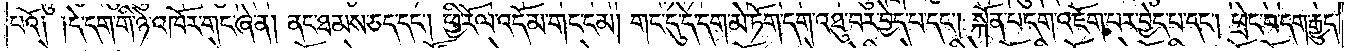པའོ༑ ༑དེ་དག་གི་ཉེ་འཁོར་གང་ཞེ་ན། ནང་ཐམས་ཅད་དང༌། ཕྱི་རོལ་འདོམ་གང་ངམ། གང་དུ་དེ་དག་མེ་ཏོག་དག་འཐུ་བར་བྱེད་པ་དང༌། སྐོན་པ་དག་འཇོག་པར་བྱེད་པ་དང༌། ཕྲེང་བ་དག་རྒྱུད་
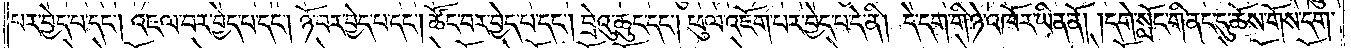པར་བྱེད་པ་དང༌། འཇལ་བར་བྱེད་པ་དང༌། ཉོ་བར་བྱེད་པ་དང༌། ཚོང་བར་བྱེད་པ་དང༌། བྲེའུ་ཆུང་དང༌། ཕུལ་འཇོག་པར་བྱེད་པ་དེ་ནི། དེ་དག་གི་ཉེ་འཁོར་ཡིན་ནོ། །དགེ་སློང་གི་ནང་དུ་ཆོས་གོས་དག་
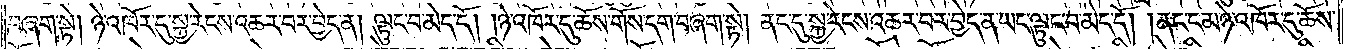བཞག་སྟེ། ཉེ་འཁོར་དུ་སྐྱ་རེངས་འཆར་བར་བྱེད་ན། ལྟུང་བ་མེད་དོ། །ཉེ་འཁོར་དུ་ཆོས་གོས་དག་བཞག་སྟེ། ནང་དུ་སྐྱ་རེངས་འཆར་བར་བྱེད་ན་ཡང་ལྟུང་བ་མེད་དོ། །ནང་ངམ་ཉེ་འཁོར་དུ་ཆོས་
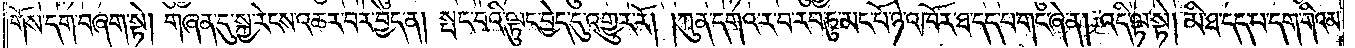གོས་དག་བཞག་སྟེ། གཞན་དུ་སྐྱ་རེངས་འཆར་བར་བྱེད་ན། སྤང་བའི་ལྟུང་བྱེད་དུ་འགྱུར་རོ། །ཀུན་དགའ་ར་བ་རབ་ཏུ་མང་པོ་ཉེ་འཁོར་ཐ་དད་པ་གང་ཞེ་ན། འདི་ལྟ་སྟེ། མི་ཐ་དད་པ་དག་གིའམ་
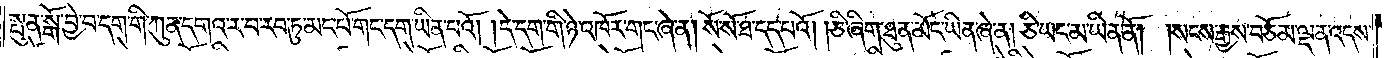སྤུན་སྒོ་བྱེ་བ་དག་གི་ཀུན་དགའ་ར་བ་རབ་ཏུ་མང་པོ་གང་དག་ཡིན་པའོ། །དེ་དག་གི་ཉེ་འཁོར་གང་ཞེ་ན། སོ་སོ་ཐ་དད་པའོ། །ཅི་ཞིག་ཐུན་མོང་ཡིན་ཞེ་ན། ཅི་ཡང་མ་ཡིན་ནོ། །སངས་རྒྱས་བཅོམ་ལྡན་འདས་
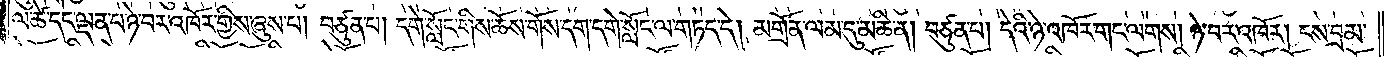ལ་ཚེ་དང་ལྡན་པ་ཉེ་བར་འཁོར་གྱིས་ཞུས་པ། བཙུན་པ། དགེ་སློང་གིས་ཆོས་གོས་དག་དགེ་སློང་ལ་གཏད་དེ། མགྲོན་ལམ་དུ་མཆི་ན། བཙུན་པ། དེའི་ཉེ་འཁོར་གང་ལགས། ཉེ་བར་འཁོར། ངས་བྲམ་
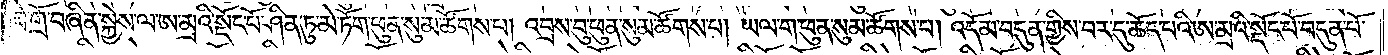ཟེ་གྲོ་བཞིན་སྐྱེས་ལ་ཨ་མྲའི་སྡོང་པོ་ཤིན་ཏུ་མེ་ཏོག་ཕུན་སུམ་ཚོགས་པ། འབྲས་བུ་ཕུན་སུམ་ཚོགས་པ། ཡལ་ག་ཕུན་སུམ་ཚོགས་པ། འདོམ་བདུན་གྱིས་བར་དུ་ཆོད་པའི་ཨ་མྲའི་སྡོང་པོ་བདུན་པོ་
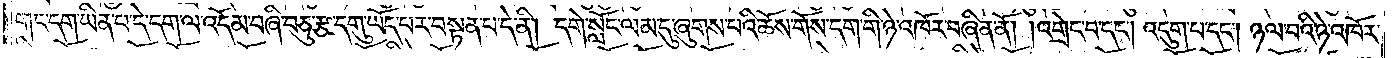གང་དག་ཡིན་པ་དེ་དག་ལ་འདོམ་བཞི་བཅུ་རྩ་དགུ་ཡོད་པར་བསྟན་པ་དེ་ནི། དགེ་སློང་ལམ་དུ་ཞུགས་པའི་ཆོས་གོས་དག་གི་ཉེ་འཁོར་བཞིན་ནོ། །འགྲེང་བ་དང༌། འདུག་པ་དང༌། ཉལ་བའི་ཉེ་འཁོར་
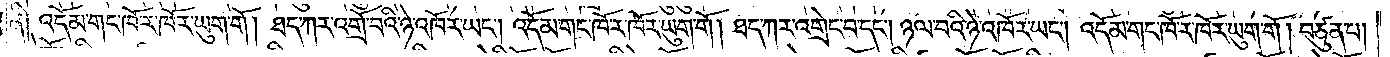ནི༑ འདོམ་གང་ཁོ་ར་ཁོར་ཡུག་གོ །ཐད་ཀར་འགྲོ་བའི་ཉེ་འཁོར་ཡང༌། འདོམ་གང་ཁོ་ར་ཁོར་ཡུག་གོ །ཐད་ཀར་འགྲེང་བ་དང༌། ཉལ་བའི་ཉེ་འཁོར་ཡང༌། འདོམ་གང་ཁོ་ར་ཁོར་ཡུག་གོ །བཙུན་པ།
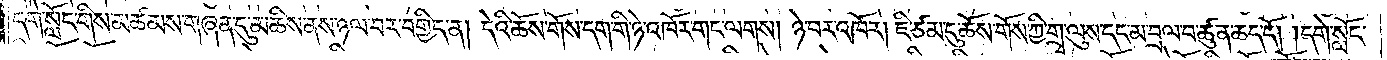དགེ་སློང་གིས་མཚམས་གཞན་དུ་མཆིས་ནས་ཉལ་བར་བགྱིད་ན། དེའི་ཆོས་གོས་དག་གི་ཉེ་འཁོར་གང་ལགས། ཉེ་བར་འཁོར། ཇི་ཙམ་དུ་ཆོས་གོས་ཀྱི་གྲྭ་ལུས་དང་མ་བྲལ་བ་ཚུན་ཆད་དོ། །དགེ་སློང་
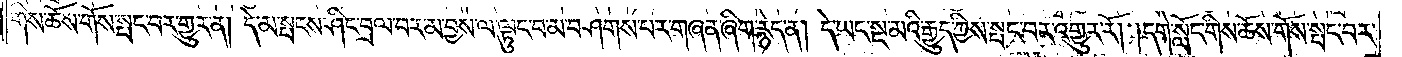གིས་ཆོས་གོས་སྤང་བར་གྱུར་ན། དེ་མ་སྤངས་ཤིང་བྲལ་བར་མ་བྱས་ལ་ལྟུང་བ་མ་བཤགས་པར་གཞན་ཞིག་རྙེད་ན། དེ་ཡང་སྔ་མའི་རྒྱུད་ཀྱིས་སྤང་བར་འགྱུར་རོ། །དགེ་སློང་གིས་ཆོས་གོས་སྤང་བར་
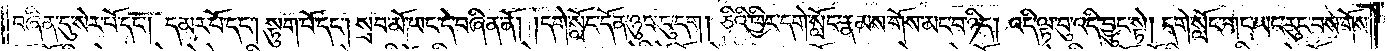བཞིན་དུ་སེར་པོ་དང༌། དམར་པོ་དང༌། སྟུག་པོ་དང༌། སྲབ་མོ་ཡང་དེ་བཞིན་ནོ། །དགེ་སློང་དོན་ཉུང་ངུ་དག། ཅིའི་ཕྱིར་དགེ་སློང་རྣམས་གོས་མང་བ་ཉིད། འདི་ལྟ་བུ་འདི་བྱུང་སྟེ། དགེ་སློང་གང་ཡང་རུང་བས་གོས་
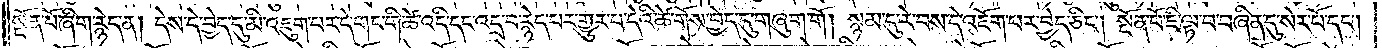སྔོན་པོ་ཞིག་རྙེད་ན། དེས་དེ་བྱེད་དུ་མི་འཇུག་པར་དེ་གང་གི་ཚེ་འདི་དང་འདྲ་བ་རྙེད་པར་གྱུར་པ་དེའི་ཚེ་གོས་བྱེད་དུ་གཞུག་གོ། སྙམ་དུ་རེ་བས་དེ་འཇོག་པར་བྱེད་ཅིང༌། སྔོན་པོ་ཇི་ལྟ་བ་བཞིན་དུ་སེར་པོ་དང༌།
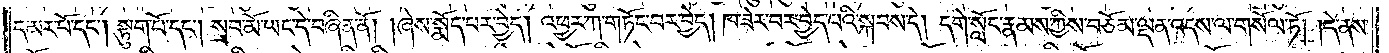དམར་པོ་དང༌། སྟུག་པོ་དང༌། སྲབ་མོ་ཡང་དེ་བཞིན་ནོ། །ཞེས་སྨོད་པར་བྱེད། འཕྱར་ཀ་གཏོང་བར་བྱེད། ཁ་ཟེར་བར་བྱེད་པའི་སྐབས་དེ། དགེ་སློང་རྣམས་ཀྱིས་བཅོམ་ལྡན་འདས་ལ་གསོལ་ཏོ། །དེ་ནས་
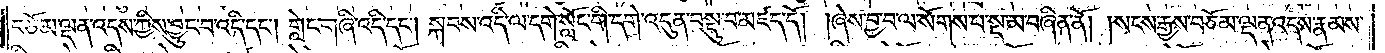བཅོམ་ལྡན་འདས་ཀྱིས་བྱུང་བ་འདི་དང༌། གླེང་གཞི་འདི་དང༌། སྐབས་འདི་ལ་དགེ་སློང་གི་དགེ་འདུན་བསྡུ་བ་མཛད་དོ། །ཞེས་བྱ་བ་ལ་སོགས་པ་སྔ་མ་བཞིན་ནོ། །སངས་རྒྱས་བཅོམ་ལྡན་འདས་རྣམས་
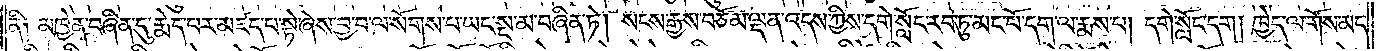ནི།  མཁྱེན་བཞིན་དུ་རྨེད་པར་མཛད་པ་སྟེ་ཞེས་བྱ་བ་ལ་སོགས་པ་ཡང་སྔ་མ་བཞིན་ཏེ། སངས་རྒྱས་བཅོམ་ལྡན་འདས་ཀྱིས་དགེ་སློང་རབ་ཏུ་མང་པོ་དག་ལ་རྨས་པ། དགེ་སློང་དག། ཁྱེད་ལ་གོས་མང་
